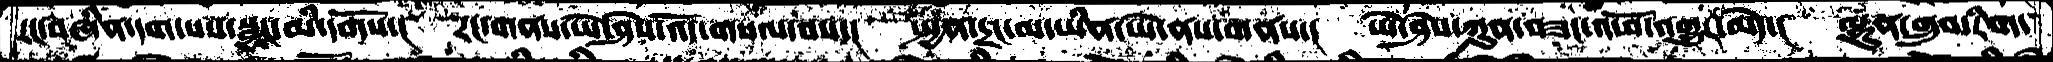རང་བཞིན་དག་པས་སྦྱང་མི་དགོས་།  རང་གནས་ཡེ་ཤེས་འོད་གསལ་བས་།  སྤྱན་དྲང་མ་ཡིན་ཡེ་ནས་གནས་།  ཡེ་ཤེས་ཀུན་བཟང་འཕོ་འགྱུར་མེད་།  ལྷུན་གྲུབ་རིག་
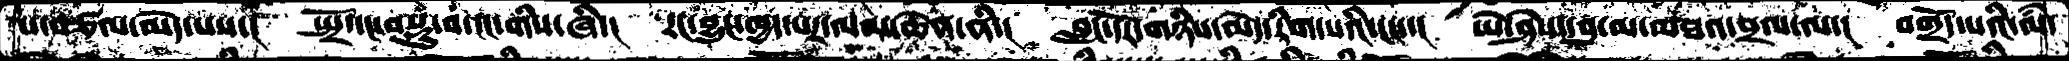པ་བཙལ་མེད་པས་།   སྤྲོ་དང་བསྡུ་བ་ངང་གིས་ཞི་།  རང་བྱུང་ཁྱད་པར་ལམ་ཆེན་ནི་།  བླང་དོར་གཉིས་མེད་རིག་པའི་ངང་།  ཡེ་ཤེས་དབུ་མ་མཐའ་བྲལ་ལ་།  བགྲོད་པའི་ལཾ་
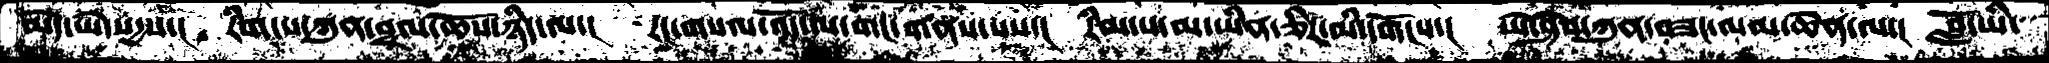མེད་ཡེ་སདྱས་།   རིག་པ་ཀུན་བྲལ་ཆོས་ཉིད་ལ་།  རང་གསལ་འོད་ལ་གང་གནས་པས་།  རིམ་པ་མ་ཡིན་ཅིར་མི་དགོངས་།  ཡེ་ཤེས་ཀུན་བཟང་ལམ་ཆེན་ལ་།  བློ་ཡི་
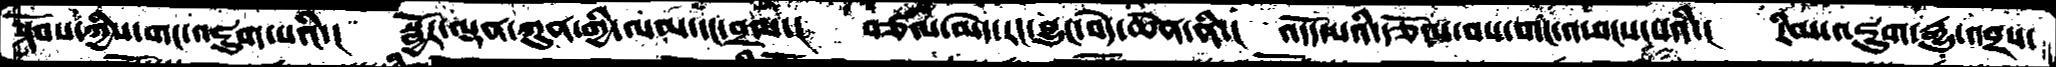སྟོབས་ཀྱིས་གང་འཇུག་པའི་།  སྦྱོར་ལྡན་ཀུན་གྱི་ལམ་དང་བྲལ་།  བཙལ་མེད་རང་བྱུང་བདེ་ཆེན་ནི་།  འདོད་པའི་རྩོལ་བས་གང་འཕངས་པའི་།  རིམ་འཇུག་རྒྱུ་འབྲས་
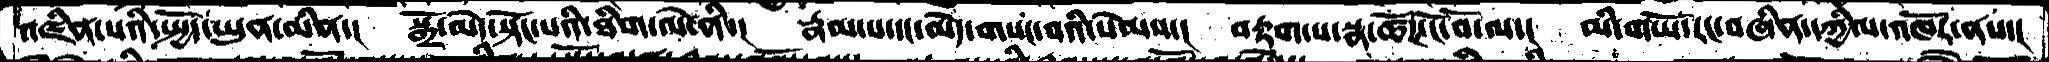འཛིན་པའི་སྤྱོད་ཡུན་མིན་།  སྒྲ་མེད་སྟོང་པའི་ཐིག་ལེ་ནི་།  རྣམ་པ་དང་མེད་གསང་བའི་སེམས་། བརྟག་པ་སྣ་ཚོཌ་ངོ་བོ་ལ་།  མི་གཡོ་རང་བཞིན་དཀྱིལ་འཁོར་ནས་།
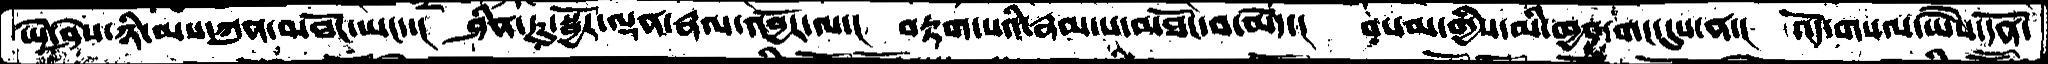ཡེ་ཤེས་ཉི་མས་ཀུན་མཐོང་ཡང་་།  ཤིན་ཏུ་སྦྱོར་ལྡན་རྣལ་འབྱོར་ལ་།  བརྟག་པའི་རྣམ་པ་མཐོང་བ་མེད་།  བསམ་གྱིས་མི་ཁྱབ་གང་དུས་ན་།  འོད་གསལ་ཡཻས་དོན་
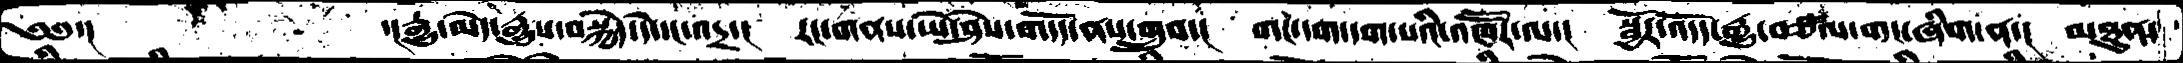༄༅་།            ་།རྒྱུ་མེད་རྒྱུས་བསྐྱེད་དེ་དང་འདྲ་།  རང་གནས་ཡེ་ཤེས་གདོད་ནས་གྲུབ་།  གང་དག་དག་པའི་འཁཽར་ལ་།  སྦྱོར་འདོད་རྒྱུ་བཙལ་གང་ཞིག་ན་།  མཐུན་
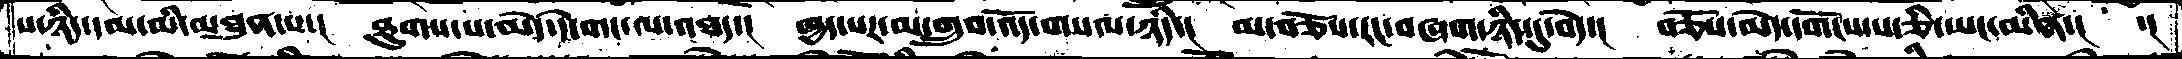པ་ཉིད་དམ་མི་མཐུན་པ་།  ཐུགས་པ་མེད་དེ་གང་ལ་འཐད་།   ཁྱད་པར་མ་གྲུབ་འོད་གསལ་ཉིད་།  མ་བཅོས་རང་བཞག་ཉིད་དུ་བདེ་།  བཅོས་མེད་དགོངས་པ་ཅི་ཡང་མིན་།  ་།
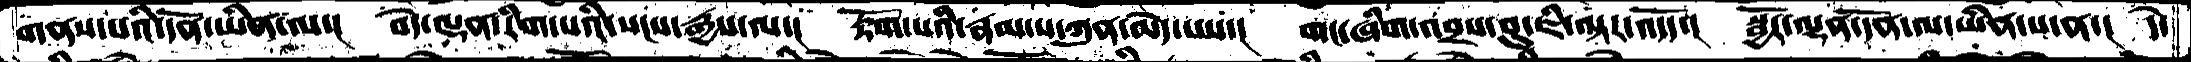གནས་པའི་དོན་ཡིན་ལ་། བདེ་ལྡན་རིག་པའི་སངས་རྒྱས་ལ་།  རྟོག་པའི་རྣམ་པ་ཀུན་མེད་པས་།  གང་ཞིག་འབྲས་བུ་ཇི་ལྟར་འདོད་།  སྦྱོར་ལྡན་དོན་ལ་ཡིན་པ་ན་།  དེ་
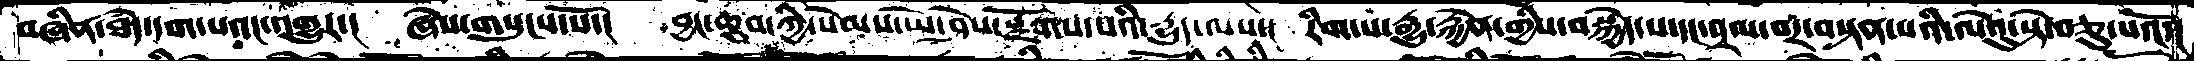བཞིན་ཐདཾ་དག་པའང་འགྱུར་།  ཞེས་གསུངས་སོ་།  བྱང་ཆུབ་ཀྱི་སེམས་ཡེ་ཤེས་སྫོགས་པའི་རྒྱུད་ལས་།  རིག་པ་རྒྱུ་རྐྱེན་གྱིས་བསྐྱེད་པ་དང་བྲལ་བར་བསྟན་པའི་ལེའུ་སྟེ་བཅུ་པའོ་།
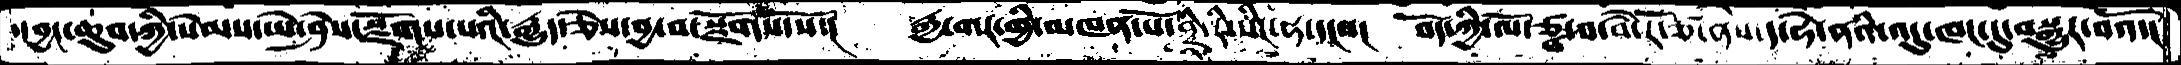་།བྱང་ཆུབ་ཀྱི་སེམས་ཡེ་ཤེས་སྫོགས་པའི་རྒྱུད་ཅེས་བྱ་བ་སྫོགས་སོ་།  རྒྱ་གར་གྱི་མཁན་པོ་ཤྲི་རི་སིང་ཧ་དང་་།  བོད་ཀྱི་ལོ་ཙྪ་བ་བཻ་རོ་ཙ་ནས་ད་ཧེ་ནའི་འདུ་ཁང་ངུ་བསྒྱུར་བའོ་།
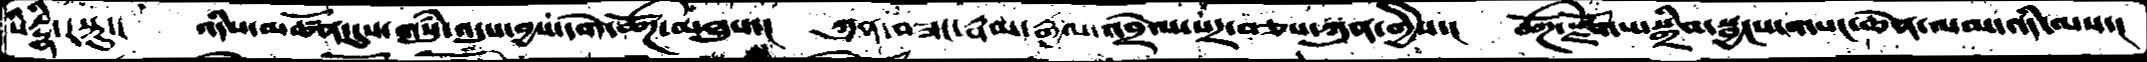སིརྡྷི་རསྟུ་།  འདིས་མཚོན་དུས་གསུཾ་འདུས་བྱས་དགེ་ཚོགས་མཐུས་།  ཀུན་བཟང་རྣམ་རྒྱལ་འབྲེལ་པར་བཅས་ཀུན་གྱིས་།  ཚོཌ་སྫོགས་སྒྲིབ་སྦྱངས་གསང་ཆེན་ལམ་འདི་ལས་།
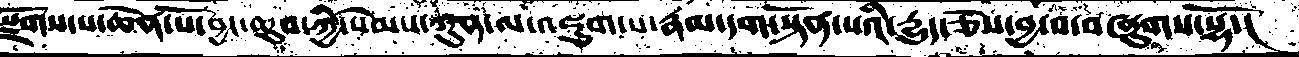སྫོགས་པ་ཆེན་པོ་བྱང་ཆུབ་ཀྱི་སེམས་ཀུན་ལ་འཇུག་པ་རྣམ་དག་སྟོན་པའི་དྱུད་ཅེས་བྱ་བ་བཞུགས་སྷོ་།
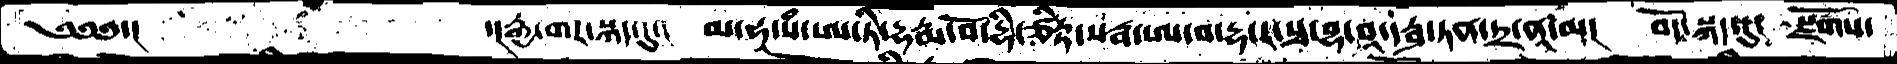༄༅༅་།        ་།རྒྱ་གར་སྐད་དུ་།   མ་ཧ་སཾ་ཨ་ཏི་དྷརྨ་བོ་དྷི་ཙིཏྟ་སརྦ་ཨ་བ་དྷ་ར་སྭ་བྷ་བཱ་དརྴ་ཏན་ཏྲ་ནཱ་མ།  བོད་སྐད་དུ།  སྫོགས་
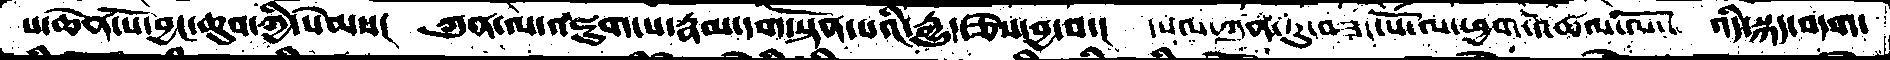པ་ཆེན་པོ་བྱང་ཆུབ་ཀྱི་སེམས།  ཀུན་ལ་འཇུག་པ་རྣམ་དག་སྟོན་པའི་རྒྱུད་ཅེས་བྱ་བ་།   དཔལ་ཀུན་ཏུ་བཟང་པོ་ལ་ཕྱག་འཚལ་ལོ་།  འདི་སྐད་བདག་
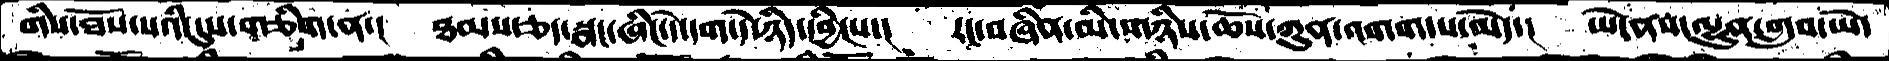གིས་ཐོས་པའི་དུས་གཅིག་ན་།  ཐམས་ཅད་སྣང་ཞིང་དེ་དག་དེ་ཉིད་དབྱིངས་།    རང་བཞིན་མི་གཉིས་ཆོས་ཀུན་འགག་པ་མེད་།  ཡེ་ནས་ལྷུན་གྲུབ་ཡེ་
